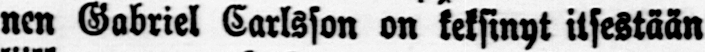nen Gabriel Carlsson on keksinyt itsestään
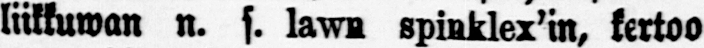liikkuwan n. s. lava spinklex'in, kertoo
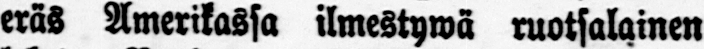eräs Amerikassa ilmestywä ruotsalainen
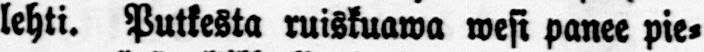lehti. Putkesta ruiskuawa wesi panee pie-
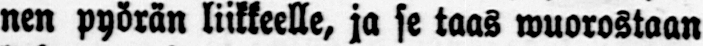nen pyörän liikkeelle, ja se taas wuorostaan
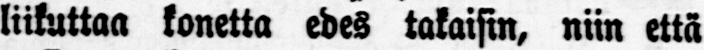liikuttaa konetta edes takaisin, niin että
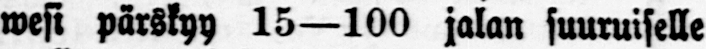wesi pärskyy 15—100 jalan suuruiselle
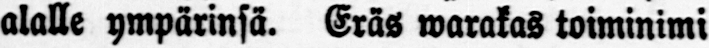alalle ympärinsä. Eräs warakas toiminimi
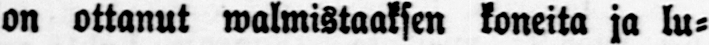on ottanut walmistaaksen koneita ja lu-
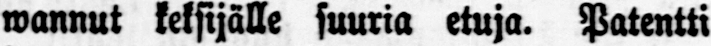vannut keksijälle suuria etuja. Patentti
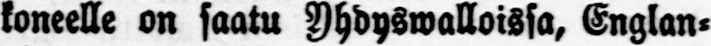koneelle on saatu Yhdyswalloissa, Englan-
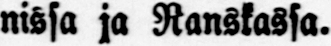nissa ja Ranskassa.
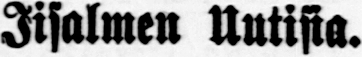Iisalmen Untista.
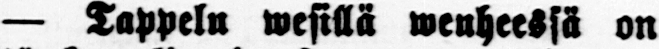— Tappelu wesillä wenheessä on
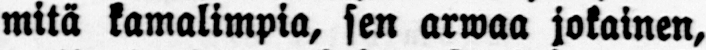mitä kamalimpia, sen arwaa jokainen,
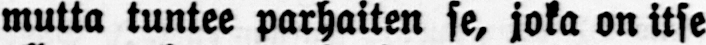mutta tuntee parhaiten se, joka on itse
